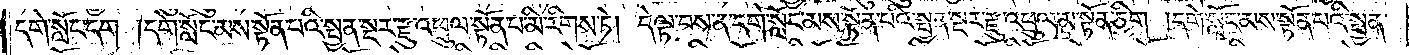དགེ་སློང་དག །དགེ་སློང་མས་སྟོན་པའི་སྤྱན་སྔར་རྫུ་འཕྲུལ་སྟོན་པ་མི་རིགས་ཏེ། དེ་ལྟ་བས་ན་དགེ་སློང་མས་སྟོན་པའི་སྤྱན་སྔར་རྫུ་འཕྲུལ་མ་སྟོན་ཅིག །དགེ་སློང་མས་སྟོན་པའི་སྤྱན་
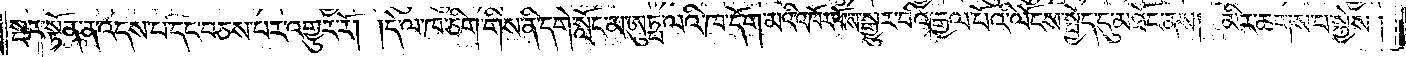སྔར་སྟོན་ན་འདས་པ་དང་བཅས་པར་འགྱུར་རོ། །དེ་ལ་ཁ་ཅིག་གིས་ནི་དགེ་སློང་མ་ཨུཏྤ་ལའི་ཁ་དོག་མའི་འཁོར་ལོས་སྒྱུར་བའི་རྒྱལ་པོའི་ལོངས་སྤྱོད་དུ་མཐོང་ནས། མིར་ཆགས་པ་སྐྱེས།
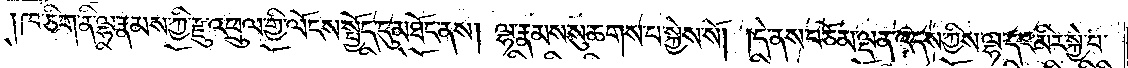ཁ་ཅིག་ནི་ལྷ་རྣམས་ཀྱི་རྫུ་འཕྲུལ་གྱི་ལོངས་སྤྱོད་དུ་མཐོང་ནས། ལྷ་རྣམས་སུ་ཆགས་པ་སྐྱེས་སོ། །དེ་ནས་བཅོམ་ལྡན་འདས་ཀྱིས་ལྷ་དང་མིར་སྐྱེ་བ་
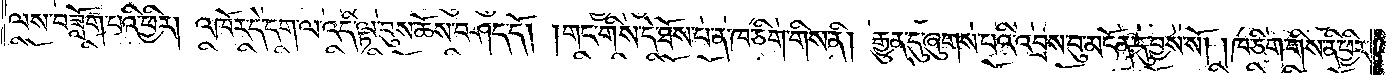ལས་བཟློག་པའི་ཕྱིར། འཁོར་དེ་དག་ལ་འདི་ལྟ་བུས་ཆོས་བཤད་དོ། །གང་གིས་དེ་ཐོས་པ་ན་ཁ་ཅིག་གིས་ནི། རྒྱུན་དུ་ཞུགས་པའི་འབྲས་བུ་མངོན་དུ་བྱས་སོ། །ཁ་ཅིག་གིས་ནི་ཕྱིར་
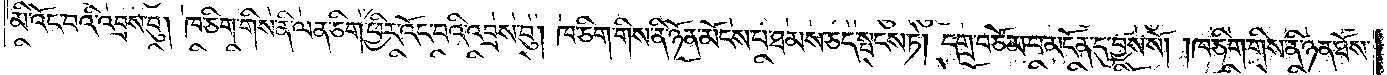མི་འོང་བའི་འབྲས་བུ། ཁ་ཅིག་གིས་ནི་ལན་ཅིག་ཕྱིར་འོང་བའི་འབྲས་བུ། ཁ་ཅིག་གིས་ནི་ཉོན་མོངས་པ་ཐམས་ཅད་སྤངས་ཏེ། དགྲ་བཅོམ་པ་མངོན་དུ་བྱས་སོ། །ཁ་ཅིག་གིས་ནི་ཉན་ཐོས་
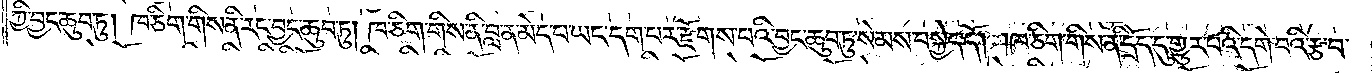ཀྱི་བྱང་ཆུབ་ཏུ། ཁ་ཅིག་གིས་ནི་རང་བྱང་ཆུབ་ཏུ། ཁ་ཅིག་གིས་ནི་བླ་ན་མེད་པ་ཡང་དག་པར་རྫོགས་པའི་བྱང་ཆུབ་ཏུ་སེམས་བསྐྱེད་དོ། །ཁ་ཅིག་གིས་ནི་དྲོད་དུ་གྱུར་བའི་དགེ་བའི་རྩ་བ་
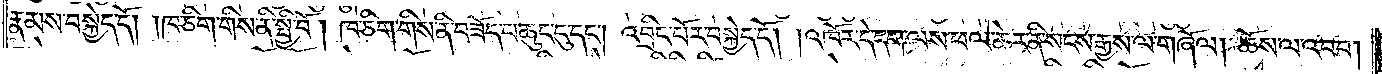རྣམས་བསྐྱེད་དོ། །ཁ་ཅིག་གིས་ནི་སྤྱི་བོ། ཁ་ཅིག་གིས་ནི་བཟོད་པ་ཆུང་ངུ་དང༌། འབྲིང་པོར་བསྐྱེད་དོ། །འཁོར་དེ་དག་ལས་ཕལ་ཆེར་ནི་སངས་རྒྱས་ལ་གཞོལ། ཆོས་ལ་འབབ།
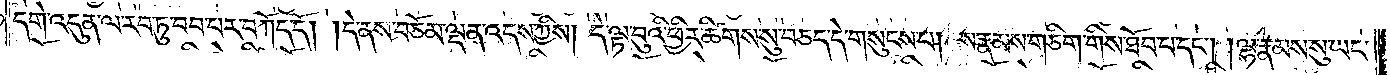དགེ་འདུན་ལ་རབ་ཏུ་བབ་པར་བཀོད་དོ། །དེ་ནས་བཅོམ་ལྡན་འདས་ཀྱིས། དེ་ལྟ་བུའི་ཕྱིར་ཚིགས་སུ་བཅད་དེ་གསུངས་པ། ས་རྣམས་གཅིག་གིས་ཐོབ་པ་དང༌། །ལྷ་རྣམས་སུ་ཡང་
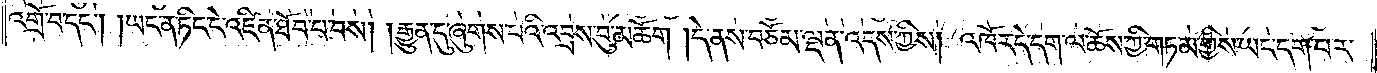འགྲོ་བ་དང༌། །ཡང་ན་ཏིང་ངེ་འཛིན་ཐོབ་པ་བས། །རྒྱུན་དུ་ཞུགས་པའི་འབྲས་བུ་མཆོག །དེ་ནས་བཅོམ་ལྡན་འདས་ཀྱིས། འཁོར་དེ་དག་ལ་ཆོས་ཀྱི་གཏམ་གྱིས་ཡང་དག་པར་
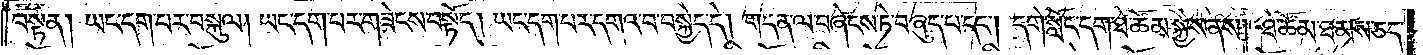བསྟན། ཡང་དག་པར་བསྐུལ། ཡང་དག་པར་གཟེངས་བསྟོད། ཡང་དག་པར་དགའ་བ་བསྐྱེད་དེ། གདན་ལ་བཞེངས་ཏེ་བཞུད་པ་དང༌། དགེ་སློང་དག་ཐེ་ཚོམ་སྐྱེས་ནས། ཐེ་ཚོམ་ཐམས་ཅད་
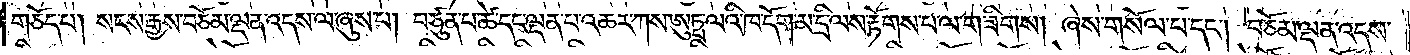གཅོད་པ། སངས་རྒྱས་བཅོམ་ལྡན་འདས་ལ་ཞུས་པ། བཙུན་པ་ཚེ་དང་ལྡན་པ་འཆར་ཀས་ཨུཏྤ་ལའི་ཁ་དོག་མ་དྲི་ལས་རྟོགས་པ་ལ་གཟིགས། ཞེས་གསོལ་པ་དང༌། བཅོམ་ལྡན་འདས་
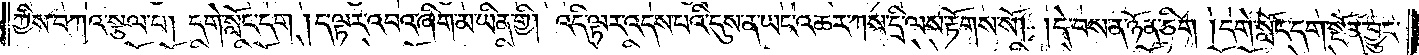ཀྱིས་བཀའ་སྩལ་པ། དགེ་སློང་དག །ད་ལྟར་འབའ་ཞིག་མ་ཡིན་གྱི། འདི་ལྟར་འདས་པའི་དུས་ན་ཡང་འཆར་ཀས་དྲི་ལས་རྟོགས་སོ། །དེ་བས་ན་ཉོན་ཅིག །དགེ་སློང་དག་སྔོན་བྱུང་
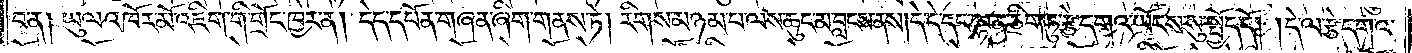བ་ན། ཡུལ་འཁོར་མོ་འཇིག་གི་གྲོང་ཁྱེར་ན། དེད་དཔོན་གཞན་ཞིག་གནས་ཏེ། རིགས་མཉམ་པ་ལས་ཆུང་མ་བླངས་ནས། དེ་དེ་དང་ལྷན་ཅིག་ཏུ་རྩེ་དགའ་ཡོངས་སུ་སྤྱོད་དོ། །དེ་ལ་རྩེ་དགའ་
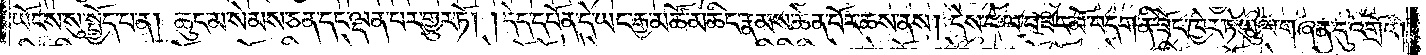ཡོངས་སུ་སྤྱོད་པ་ན། ཆུང་མ་སེམས་ཅན་དང་ལྡན་པར་གྱུར་ཏོ། །དེད་དཔོན་དེ་ཡང་རྒྱ་མཚོ་མཆིང་རྣམས་ཆེན་པོར་ཆས་ནས། དེས་དེ་ལ་བཟང་མོ་བདག་ནི་ཟོང་ཁྱེར་ཏེ་ཡུལ་གཞན་དུ་འགྲོའི།
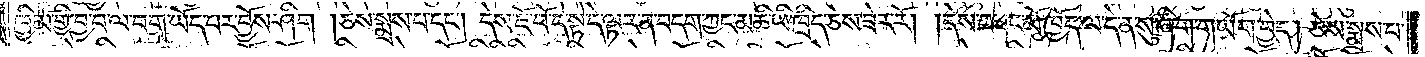ཁྱིམ་གྱི་བྱ་བ་ལ་བག་ཡོད་པར་བྱོས་ཤིག །ཅེས་སྨྲས་པ་དང༌། དེས་ཇོ་བོ་དེ་སྟེ་དེ་ལྟར་ན་བདག་ཀྱང་མཆི་ཡི་ཁྲིད་ཅེས་ཟེར་རོ། །དེས་བཟང་མོ་ཁྱོད་ལ་དེ་ན་སུ་ཞིག་གཡོག་བྱེད། ཅེས་སྨྲས་པ་
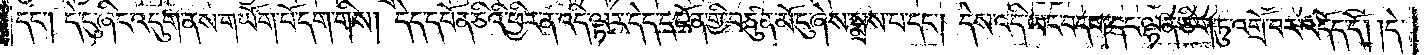དང༌། དེ་ངུ་ཞིང་འདུག་ནས་གཡོག་པོ་དག་གིས། དེད་དཔོན་ཅིའི་ཕྱིར་ན་འདི་ལྟར་དེད་དཔོན་གྱི་བཙུན་མོ་ངུ་ཞེས་སྨྲས་པ་དང༌། དེས་འདི་ཡང་བདག་དང་ལྷན་ཅིག་ཏུ་འགྲོ་བར་འདོད་དོ། །དེ་
